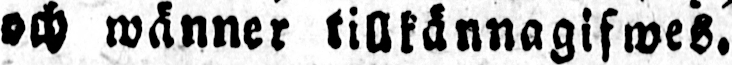och wänner tillkännagifwes.
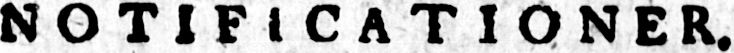NOTIFICATIONER.
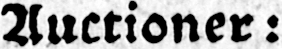Auctioner:
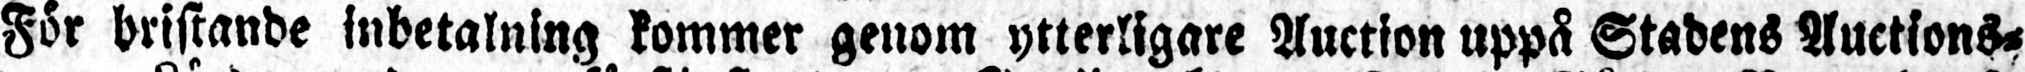För bristande inbetalning kommer genom ytterligare Auction uppå Stadens Auctions-
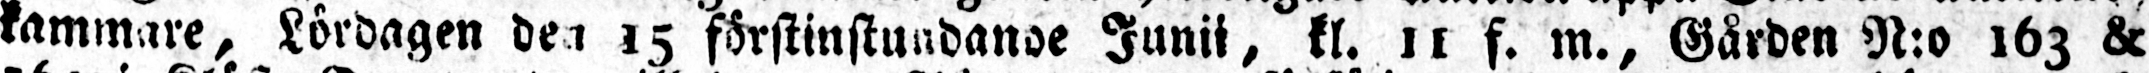kammare, Lördagen den 15 förstinstundande Junii, kl. 11 f. m., Gården N:o 163 &
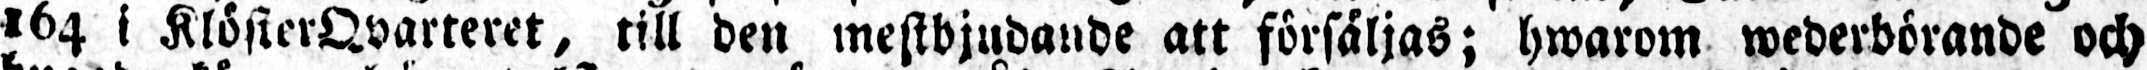164 i KlösterQvarteret, till den mestbjudande att försäljas; hwarom wederbörande och
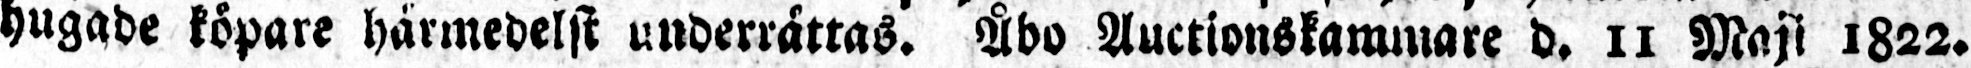hugade köpare härmedelst underrättas. Åbo Auctionskammare d. 11 Maji 1822.
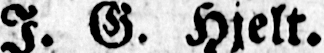I. G. Hjelt.
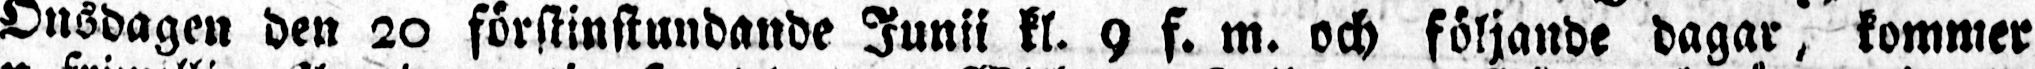Onsdagen den 20 förstinstundande Junii kl. 9 f. m. och följande dagar, kommer
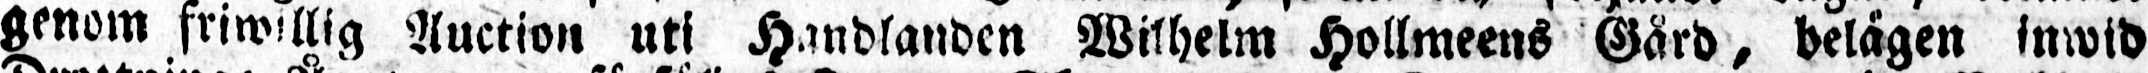genom friwillig Auction uti Handlanden Wilhelm Hollmeens Gård, belägen inwid
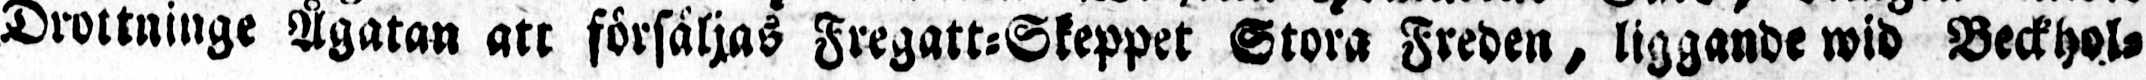Drottninge Ågatan att försäljas Fregatt-Skeppet Stora Freden, liggande wid Beckhol-
